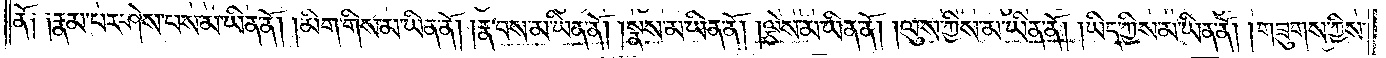ནོ༑ ༑རྣམ་པར་ཤེས་པས་མ་ཡིན་ནོ། །མིག་གིས་མ་ཡིན་ནོ། །རྣ་བས་མ་ཡིན་ནོ། །སྣས་མ་ཡིན་ནོ། །ལྕེས་མ་ཡིན་ནོ། །ལུས་ཀྱིས་མ་ཡིན་ནོ། །ཡིད་ཀྱིས་མ་ཡིན་ནོ། །གཟུགས་ཀྱིས་
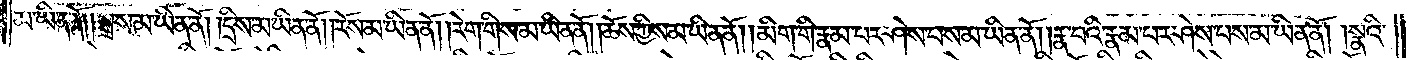མ་ཡིན་ནོ། །སྒྲས་མ་ཡིན་ནོ། །དྲིས་མ་ཡིན་ནོ། །རོས་མ་ཡིན་ནོ། །རེག་གིས་མ་ཡིན་ནོ། །ཆོས་ཀྱིས་མ་ཡིན་ནོ། །མིག་གི་རྣམ་པར་ཤེས་པས་མ་ཡིན་ནོ། །རྣ་བའི་རྣམ་པར་ཤེས་པས་མ་ཡིན་ནོ། །སྣའི་
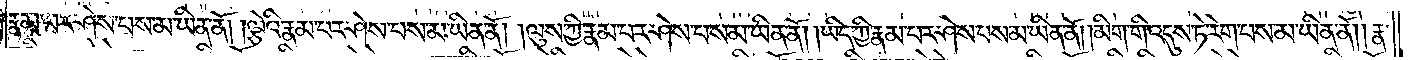རྣམ་པར་ཤེས་པས་མ་ཡིན་ནོ། །ལྕེའི་རྣམ་པར་ཤེས་པས་མ་ཡིན་ནོ། །ལུས་ཀྱི་རྣམ་པར་ཤེས་པས་མ་ཡིན་ནོ། །ཡིད་ཀྱི་རྣམ་པར་ཤེས་པས་མ་ཡིན་ནོ། །མིག་གི་འདུས་ཏེ་རེག་པས་མ་ཡིན་ནོ། །རྣ་
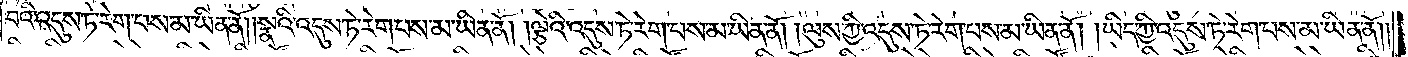བའི་འདུས་ཏེ་རེག་པས་མ་ཡིན་ནོ། །སྣའི་འདུས་ཏེ་རེག་པས་མ་ཡིན་ནོ། །ལྕེའི་འདུས་ཏེ་རེག་པས་མ་ཡིན་ནོ། །ལུས་ཀྱི་འདུས་ཏེ་རེག་པས་མ་ཡིན་ནོ། །ཡིད་ཀྱི་འདུས་ཏེ་རེག་པས་མ་ཡིན་ནོ༎
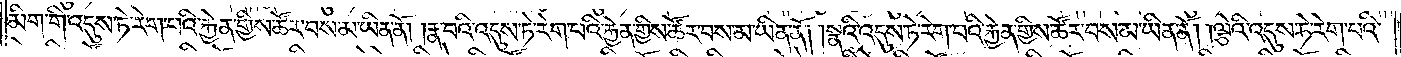མིག་གི་འདུས་ཏེ་རེག་པའི་རྐྱེན་གྱིས་ཚོར་བས་མ་ཡིན་ནོ། །རྣ་བའི་འདུས་ཏེ་རེག་པའི་རྐྱེན་གྱིས་ཚོར་བས་མ་ཡིན་ནོ། །སྣའི་འདུས་ཏེ་རེག་པའི་རྐྱེན་གྱིས་ཚོར་བས་མ་ཡིན་ནོ། །ལྕེའི་འདུས་ཏེ་རེག་པའི་
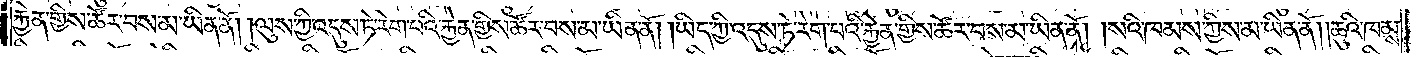རྐྱེན་གྱིས་ཚོར་བས་མ་ཡིན་ནོ། །ལུས་ཀྱི་འདུས་ཏེ་རེག་པའི་རྐྱེན་གྱིས་ཚོར་བས་མ་ཡིན་ནོ། །ཡིད་ཀྱི་འདུས་ཏེ་རེག་པའི་རྐྱེན་གྱིས་ཚོར་བས་མ་ཡིན་ནོ། །སའི་ཁམས་ཀྱིས་མ་ཡིན་ནོ། །ཆུའི་ཁམས་
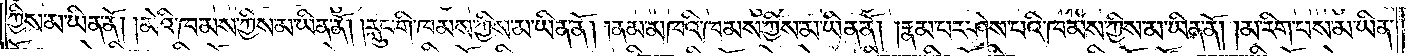ཀྱིས་མ་ཡིན་ནོ། །མེའི་ཁམས་ཀྱིས་མ་ཡིན་ནོ། །རླུང་གི་ཁམས་ཀྱིས་མ་ཡིན་ནོ། །ནམ་མཁའི་ཁམས་ཀྱིས་མ་ཡིན་ནོ། །རྣམ་པར་ཤེས་པའི་ཁམས་ཀྱིས་མ་ཡིན་ནོ། །མ་རིག་པས་མ་ཡིན་
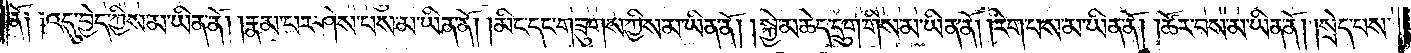ནོ༑ ༑འདུ་བྱེད་ཀྱིས་མ་ཡིན་ནོ། །རྣམ་པར་ཤེས་པས་མ་ཡིན་ནོ། །མིང་དང་གཟུགས་ཀྱིས་མ་ཡིན་ནོ། །སྐྱེ་མཆེད་དྲུག་གིས་མ་ཡིན་ནོ། །རེག་པས་མ་ཡིན་ནོ། །ཚོར་བས་མ་ཡིན་ནོ། །སྲེད་པས་
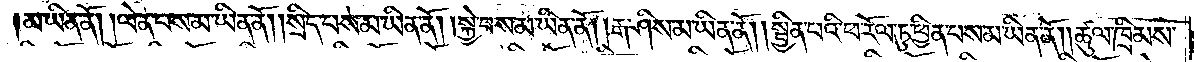མ་ཡིན་ནོ། །ལེན་པས་མ་ཡིན་ནོ། །སྲིད་པས་མ་ཡིན་ནོ། །སྐྱེ་བས་མ་ཡིན་ནོ། །རྒ་ཤིས་མ་ཡིན་ནོ། །སྦྱིན་པའི་ཕ་རོལ་ཏུ་ཕྱིན་པས་མ་ཡིན་ནོ། །ཚུལ་ཁྲིམས་
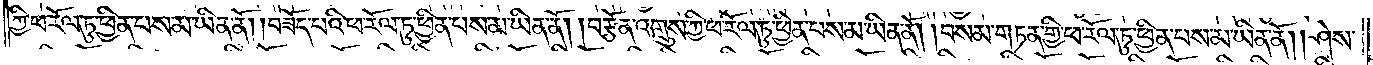ཀྱི་ཕ་རོལ་ཏུ་ཕྱིན་པས་མ་ཡིན་ནོ། །བཟོད་པའི་ཕ་རོལ་ཏུ་ཕྱིན་པས་མ་ཡིན་ནོ། །བརྩོན་འགྲུས་ཀྱི་ཕ་རོལ་ཏུ་ཕྱིན་པས་མ་ཡིན་ནོ། །བསམ་གཏན་གྱི་ཕ་རོལ་ཏུ་ཕྱིན་པས་མ་ཡིན་ནོ། །ཤེས་
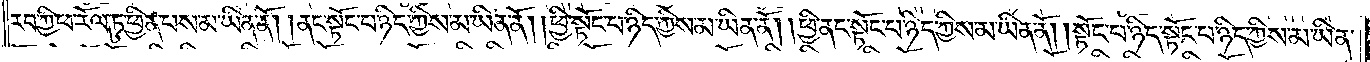རབ་ཀྱི་ཕ་རོལ་ཏུ་ཕྱིན་པས་མ་ཡིན་ནོ། །ནང་སྟོང་པ་ཉིད་ཀྱིས་མ་ཡིན་ནོ། །ཕྱི་སྟོང་པ་ཉིད་ཀྱིས་མ་ཡིན་ནོ། །ཕྱི་ནང་སྟོང་པ་ཉིད་ཀྱིས་མ་ཡིན་ནོ། །སྟོང་པ་ཉིད་སྟོང་པ་ཉིད་ཀྱིས་མ་ཡིན་
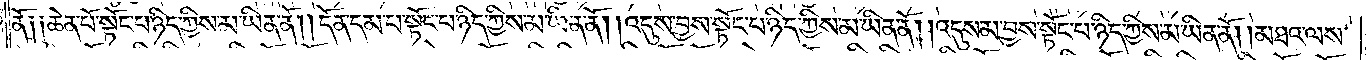ནོ༑ ༑ཆེན་པོ་སྟོང་པ་ཉིད་ཀྱིས་མ་ཡིན་ནོ། །དོན་དམ་པ་སྟོང་པ་ཉིད་ཀྱིས་མ་ཡིན་ནོ། །འདུས་བྱས་སྟོང་པ་ཉིད་ཀྱིས་མ་ཡིན་ནོ། །འདུས་མ་བྱས་སྟོང་པ་ཉིད་ཀྱིས་མ་ཡིན་ནོ། །མཐའ་ལས་
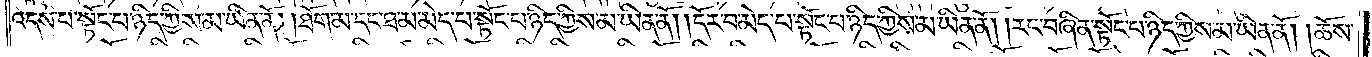འདས་པ་སྟོང་པ་ཉིད་ཀྱིས་མ་ཡིན་ནོ། །ཐོག་མ་དང་ཐ་མ་མེད་པ་སྟོང་པ་ཉིད་ཀྱིས་མ་ཡིན་ནོ། །དོར་བ་མེད་པ་སྟོང་པ་ཉིད་ཀྱིས་མ་ཡིན་ནོ། །རང་བཞིན་སྟོང་པ་ཉིད་ཀྱིས་མ་ཡིན་ནོ། །ཆོས་
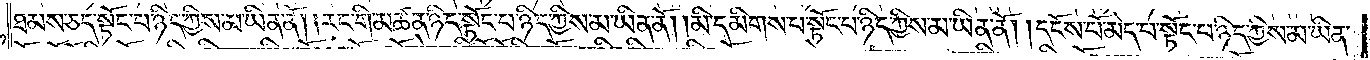ཐམས་ཅད་སྟོང་པ་ཉིད་ཀྱིས་མ་ཡིན་ནོ། །རང་གི་མཚན་ཉིད་སྟོང་པ་ཉིད་ཀྱིས་མ་ཡིན་ནོ། །མི་དམིགས་པ་སྟོང་པ་ཉིད་ཀྱིས་མ་ཡིན་ནོ། །དངོས་པོ་མེད་པ་སྟོང་པ་ཉིད་ཀྱིས་མ་ཡིན་
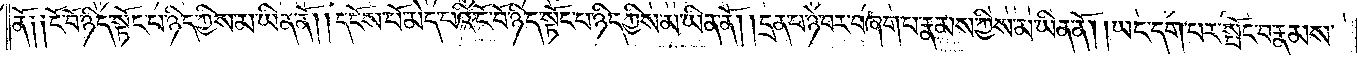ནོ༑ ༑ངོ་བོ་ཉིད་སྟོང་པ་ཉིད་ཀྱིས་མ་ཡིན་ནོ། །དངོས་པོ་མེད་པའི་ངོ་བོ་ཉིད་སྟོང་པ་ཉིད་ཀྱིས་མ་ཡིན་ནོ། །དྲན་པ་ཉེ་བར་བཞག་པ་རྣམས་ཀྱིས་མ་ཡིན་ནོ། །ཡང་དག་པར་སྤོང་བ་རྣམས་
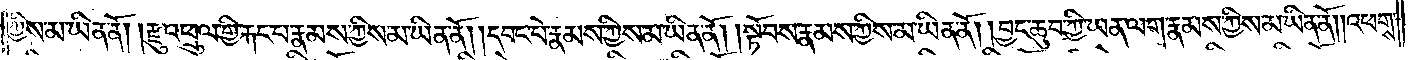ཀྱིས་མ་ཡིན་ནོ། །རྫུ་འཕྲུལ་གྱི་རྐང་པ་རྣམས་ཀྱིས་མ་ཡིན་ནོ། །དབང་པོ་རྣམས་ཀྱིས་མ་ཡིན་ནོ། །སྟོབས་རྣམས་ཀྱིས་མ་ཡིན་ནོ། །བྱང་ཆུབ་ཀྱི་ཡན་ལག་རྣམས་ཀྱིས་མ་ཡིན་ནོ། །འཕགས་
